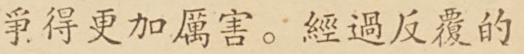爭得更加厲害。經過反覆的
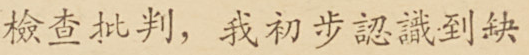檢查批判，我初步認識到缺
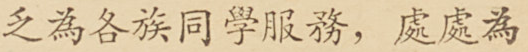乏為各族同學服務，處處為
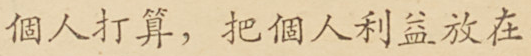個人打算，把個人利益放在
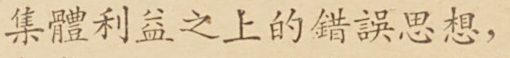集體利益之上的錯誤思想，
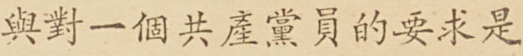與對一個共產黨員的要求是
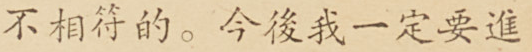不相符的。今後我一定要進
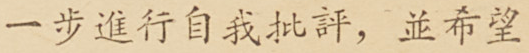一步進行自我批評，並希望
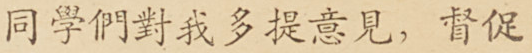同學們對我多提意見，督促
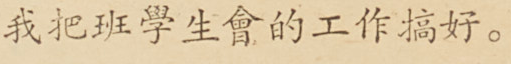我把班學生會的工作搞好。
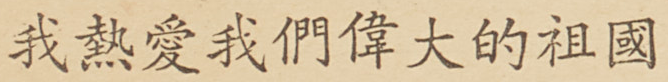我熱愛我們偉大的祖國
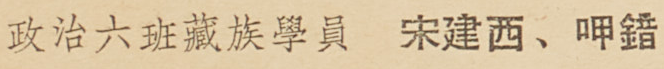政治六班藏族學員 宋建西、呷錯
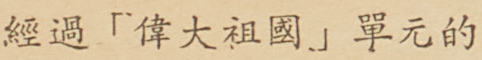經過「偉大祖國」單元的
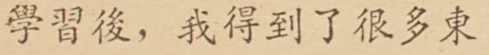學習後，我得到了很多東
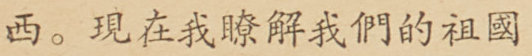西。現在我瞭解我們的祖國
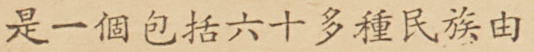是一個包括六十多種民族由
